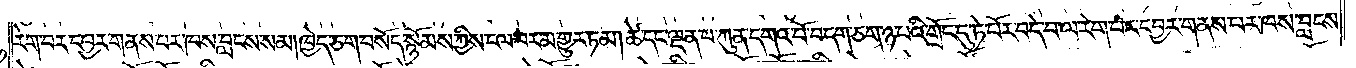རེག་པར་དབྱར་གནས་པར་ཁས་བླངས་སམ། ཁྱེད་ཅག་བསོད་སྙོམས་ཀྱིས་ངལ་བར་མ་གྱུར་ཏམ། ཚེ་དང་ལྡན་པ་ཀུན་དགའ་བོ་བདག་ཅག་ཉ་པའི་གྲོང་དུ་ཏེ་པོར་བདེ་བ་ལ་རེག་པར་དབྱར་གནས་པར་ཁས་བླངས་
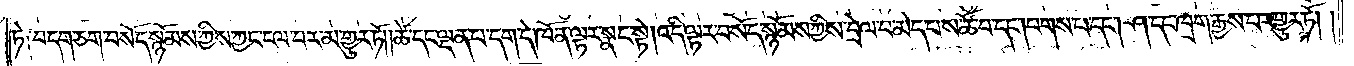ཏེ༑ བདག་ཅག་བསོད་སྙོམས་ཀྱིས་ཀྱང་ངལ་བར་མ་གྱུར་ཏོ། །ཚེ་དང་ལྡན་པ་དག་དེ་ཁོ་ན་ལྟར་སྣང་སྟེ། འདི་ལྟར་བསོད་སྙོམས་ཀྱིས་བྲེལ་བ་མེད་པས་ཚོ་བ་དང༌། པགས་པ་དང༌། ཤ་དང་ཁྲག་རྒྱས་པར་གྱུར་ཏོ། །
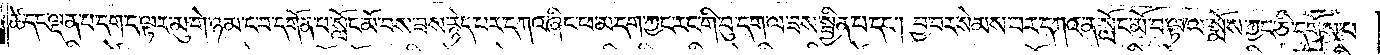ཚེ་དང་ལྡན་པ་དག་ད་ལྟར་མུ་གེ་ཉམ་ང་བ་དགོན་པ་སློང་མོ་བས་ཟས་རྙེད་པར་དཀའ་ཞིང་ཕ་མ་དག་ཀྱང་རང་གི་བུ་དག་ལ་ཟས་སྦྱིན་པ་དང༌། བྱ་བར་སེམས་པར་དཀའ་ན་སློང་མོ་བ་ལྟ་ལ་སྨོས་ཀྱང་ཅི་དགོས་པ་
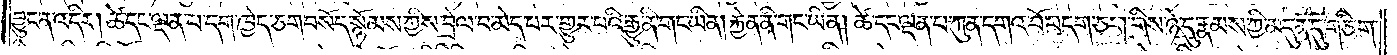བྱུང་ན་འདིར། ཚེ་དང་ལྡན་པ་དག་ཁྱེད་ཅག་བསོད་སྙོམས་ཀྱིས་བྲེལ་བ་མེད་པར་གྱུར་པའི་རྒྱུ་ནི་གང་ཡིན། རྐྱེན་ནི་གང་ཡིན། ཚེ་དང་ལྡན་པ་ཀུན་དགའ་བོ་བདག་ཅག་གིས་ཉེ་དུ་རྣམས་ཀྱི་མདུན་དུ་གཅིག་
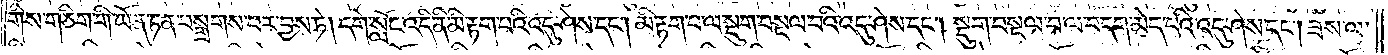གིས་གཅིག་གི་ཡོན་ཏན་བསྒྲགས་པར་བྱས་ཏེ། དགེ་སློང་འདི་ནི་མི་རྟག་པའི་འདུ་ཤེས་དང༌། མི་རྟག་པ་ལ་སྡུག་བསྔལ་བའི་འདུ་ཤེས་དང༌། སྡུག་བསྔལ་བ་ལ་བདག་མེད་པའི་འདུ་ཤེས་དང༌། ཟས་ལ་
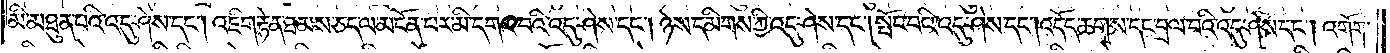མི་མཐུན་པའི་འདུ་ཤེས་དང༌། འཇིག་རྟེན་ཐམས་ཅད་ལ་མངོན་པར་མི་དགའ་བའི་འདུ་ཤེས་དང༌། ཉེས་དམིགས་ཀྱི་འདུ་ཤེས་དང༌། སྤོང་བའི་འདུ་ཤེས་དང༌། འདོད་ཆགས་དང་བྲལ་བའི་འདུ་ཤེས་དང༌། འགོག་
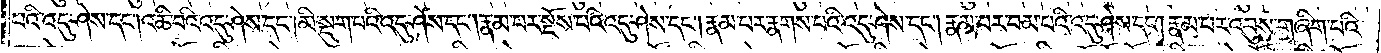པའི་འདུ་ཤེས་དང༌། འཆི་བའི་འདུ་ཤེས་དང༌། མི་སྡུག་པའི་འདུ་ཤེས་དང༌། རྣམ་པར་སྔོས་པའི་འདུ་ཤེས་དང༌། རྣམ་པར་རྣགས་པའི་འདུ་ཤེས་དང༌། རྣམ་པར་བམ་པའི་འདུ་ཤེས་དང༌། རྣམ་པར་འབུས་གཞིག་པའི་
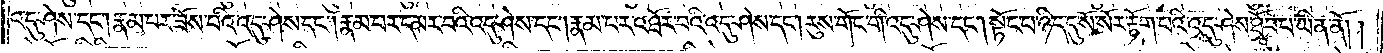འདུ་ཤེས་དང༌། རྣམ་པར་ཟོས་པའི་འདུ་ཤེས་དང༌། རྣམ་པར་དམར་བའི་འདུ་ཤེས་དང༌། རྣམ་པར་འཐོར་བའི་འདུ་ཤེས་དང༌། རུས་གོང་གི་འདུ་ཤེས་དང༌། སྟོང་པ་ཉིད་དུ་སོ་སོར་རྟོག་པའི་འདུ་ཤེས་ཐོབ་པ་ཡིན་ནོ། །
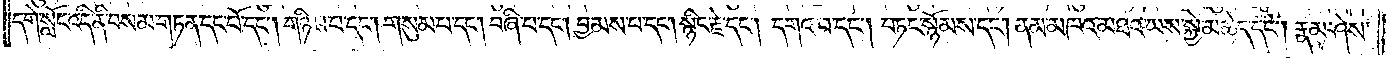དགེ་སློང་འདི་ནི་བསམ་གཏན་དང་པོ་དང༌། གཉིས་པ་དང༌། གསུམ་པ་དང༌། བཞི་པ་དང༌། བྱམས་པ་དང༌། སྙིང་རྗེ་དང༌། དགའ་བ་དང༌། བཏང་སྙོམས་དང༌། ནམ་མཁའ་མཐའ་ཡས་སྐྱེ་མཆེད་དང༌། རྣམ་ཤེས་
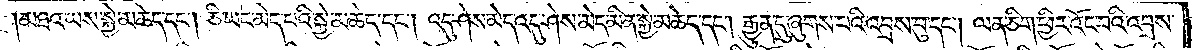།མཐའ་ཡས་སྐྱེ་མཆེད་དང༌། ཅི་ཡང་མེད་པའི་སྐྱེ་མཆེད་དང༌། འདུ་ཤེས་མེད་འདུ་ཤེས་མེད་མིན་སྐྱེ་མཆེད་དང༌། རྒྱུན་དུ་ཞུགས་པའི་འབྲས་བུ་དང༌། ལན་ཅིག་ཕྱིར་འོང་བའི་འབྲས་
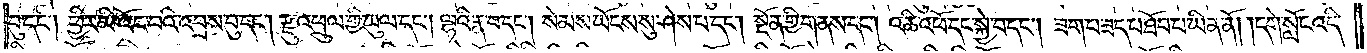བུ་དང༌། ཕྱིར་མི་འོང་བའི་འབྲས་བུ་དང༌། རྫུ་འཕྲུལ་གྱི་ཡུལ་དང༌། ལྷའི་རྣ་བ་དང༌། སེམས་ཡོངས་སུ་ཤེས་པ་དང༌། སྔོན་གྱི་གནས་དང༌། འཆི་འཕོ་དང་སྐྱེ་བ་དང༌། ཟག་པ་ཟད་པ་ཐོབ་པ་ཡིན་ནོ། །དགེ་སློང་འདི་
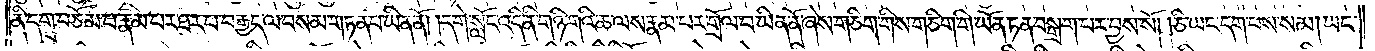ནི་དགྲ་བཅོམ་པ་རྣམ་པར་ཐར་པ་བརྒྱད་ལ་བསམ་གཏན་པ་ཡིན་ནོ། །དགེ་སློང་འདི་ནི་གཉི་གའི་ཆ་ལས་རྣམ་པར་གྲོལ་བ་ཡིན་ནོ་ཞེས་གཅིག་གིས་གཅིག་གི་ཡོན་ཏན་བསྒྲག་པར་བྱས་སོ། །ཅི་ཡང་དག་པས་སམ། ཡང་
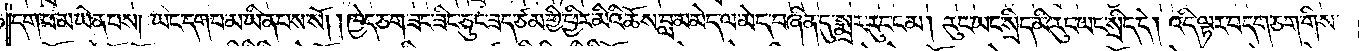དག་པ་མ་ཡིན་པས། ཡང་དག་པ་མ་ཡིན་པས་སོ། །ཁྱེད་ཅག་ཟང་ཟིང་ཅུང་ཟད་ཙམ་གྱི་ཕྱིར་མིའི་ཆོས་བླ་མ་མེད་ལ་མེད་བཞིན་དུ་སྨྲར་རུང་ངམ། རུང་ཡང་སྲིད་མི་རུང་ཡང་སྲིད་དེ། འདི་ལྟར་བདག་ཅག་གིས་
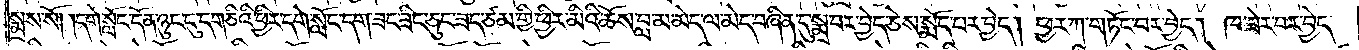སྨྲས་སོ། །དགེ་སློང་དོན་ཉུང་ངུ་དག་ཅིའི་ཕྱིར་དགེ་སློང་དག་ཟང་ཟིང་ཅུང་ཟད་ཙམ་གྱི་ཕྱིར་མིའི་ཆོས་བླ་མ་མེད་ལ་མེད་བཞིན་དུ་སྨྲ་བར་བྱེད་ཅེས་སྨོད་པར་བྱེད། ཕྱར་ཀ་གཏོང་བར་བྱེད། ཁ་ཟེར་བར་བྱེད་
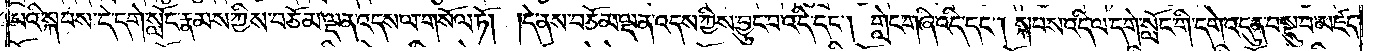པའི་སྐབས་དེ་དགེ་སློང་རྣམས་ཀྱིས་བཅོམ་ལྡན་འདས་ལ་གསོལ་ཏོ། །དེ་ནས་བཅོམ་ལྡན་འདས་ཀྱིས་བྱུང་བ་འདི་དང༌། གླེང་གཞི་འདི་དང༌། སྐབས་འདི་ལ་དགེ་སློང་གི་དགེ་འདུན་བསྡུ་བ་མཛད་
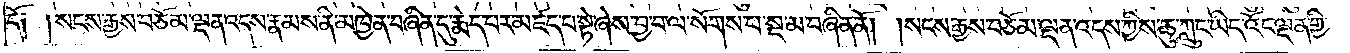དོ༑ ༑སངས་རྒྱས་བཅོམ་ལྡན་འདས་རྣམས་ནི་མཁྱེན་བཞིན་དུ་རྨེད་པར་མཛད་པ་སྟེ་ཞེས་བྱ་བ་ལ་སོགས་པ་སྔ་མ་བཞིན་ནོ། །སངས་རྒྱས་བཅོམ་ལྡན་འདས་ཀྱིས་ཆུ་ཀླུང་ཡིད་འོང་ལྡན་གྱི་
